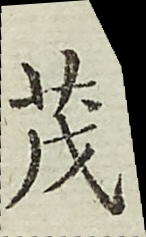茂
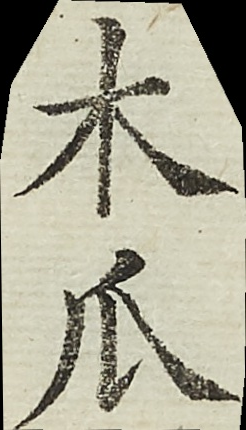木瓜
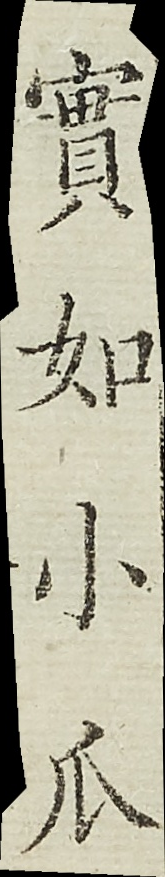實如小瓜
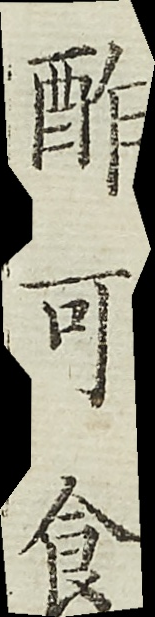酢可食
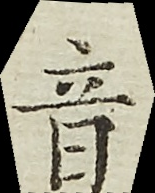音
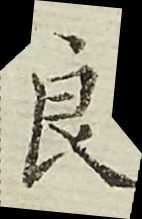良
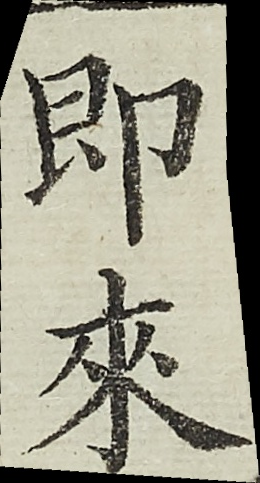即來
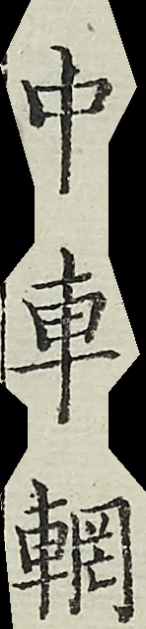中車輞
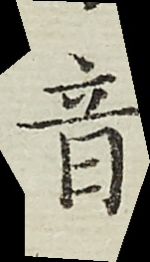音
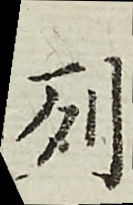列
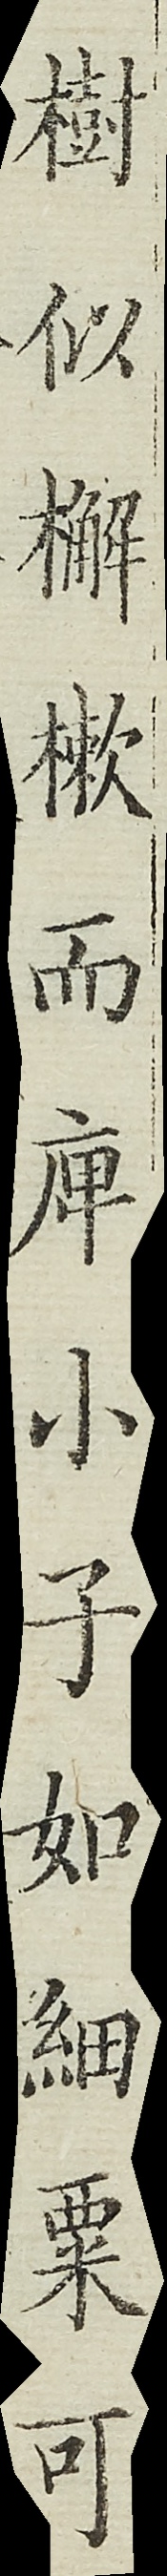樹似檞樕而庳小子如細栗可
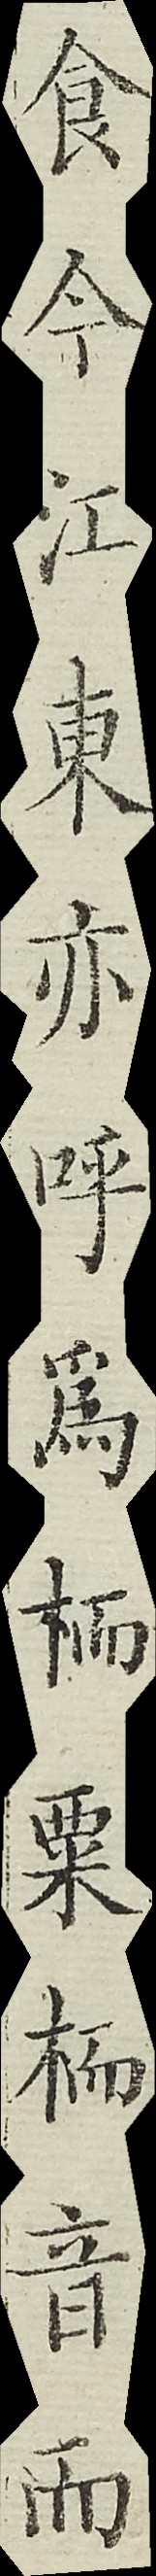食今江東亦呼為栭粟栭音而
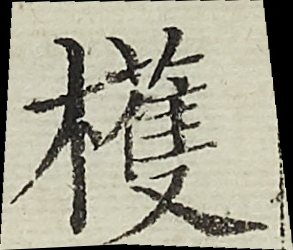檴
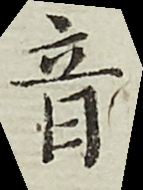音
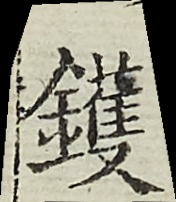鑊
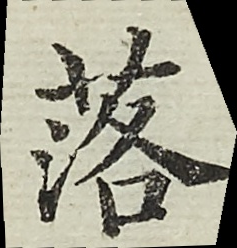落
